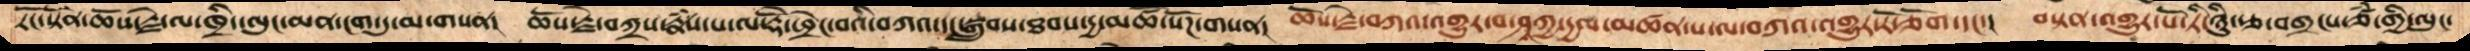རིང་སྟོན་ཆོས་རྗེ་ལ་ཁྲིད་ལུང་མན་ངག་དུ་མ་གསན།   ཆོས་རྗེ་བཀྲས་རྣཾས་པ་ལ་རྡོེ་ཕྲེང་བའི་བཀའ་དང་སྒྲུབས་ཐབས་དྱ་མཚོ་སོཌ་གསན།   ཆོས་རྗེ་བཀའ་འགྱུར་བ་ཤཱཀྱ་དྱལ་མཚན་པ་ལ་བཀའ་འགྱུར་རོ་ཅོག་དང་།   བསྟན་འགྱུར་པོ་ཏི་ཉིུ་རྩ་བགྲངས་ཙཾ་གྱི་ལུང་
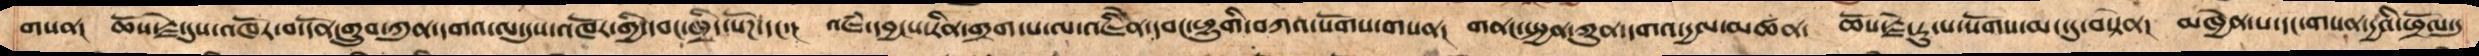གསན།  ཆོས་རྗེ་དུས་འཁོར་བ་དོན་གྲུབ་ཀུན་དགའ་ལ་དུས་འཁོར་གྱི་དབང་ཁྲིད་སོཌ་དང་།   འཇཾ་དབྱངས་རིན་གྲག་པ་ལ་འཇིནེ་དབང་ཕྱུགི་བཀའ་སོགས་གསན།   གནང་སྤྱན་ཀུན་དགའ་དྱལ་མཚན་   ཆོས་རྗེ་རུ་པ་སོགས་མང་དུ་བསྟེན།   མཁྱེན་པ་དང་གསན་དྱའི་ཕྲོལ་དུ
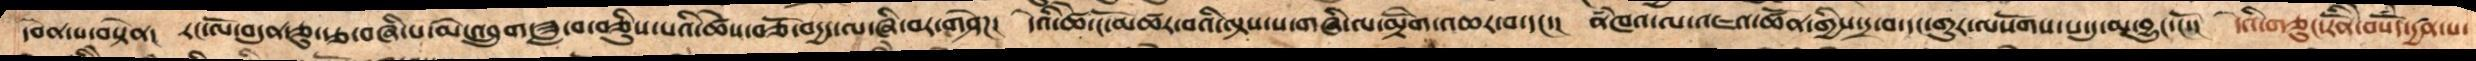དབེན་པ་བསྟེན།   རང་ལོ་བདུན་ཅུ་རྩ་བཞི་པ་མེ་འབྲུག་ཟླ་བ་བཅིུས་པའི་ཚེས་བཅོ་བདྱད་ལ་ཞི་བར་གཤེཌ།    དེའི་ཚེ་ངོ་མཚར་བའི་ལྟས་ས་གཞི་ལ་མྟེགོ་འཆར་བ་དང་།   ནཾཁའ་ལ་འཇའ་ཚོན་གྱིས་དྲ་བ་དང་གུར་ལསོགས་པ་དུ་མ་བྱུང་ངོ་།    དེའི་གཅུང་རིནོི་བསོདཾ་དྱཚན་པ་
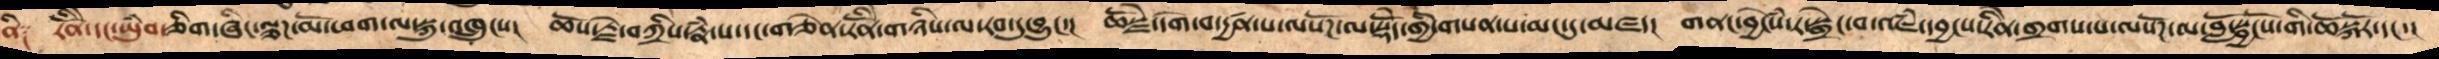ནི༑   རིནོེ་དང་ཡུཾབ་ཅིག་ཞིང་ལྕཌ་མོ་ཕག་ལ་སྐུ་འཁྲུངས།    ཆོས་རྗེ་བཀྲིས་རྣཾ་པ་དང་གཅེན་རིནོེ་གཉིས་ལ་རབ་དུ་བྱུང་།   ཆོསྗེ་དགེ་བ་དྱཚན་པ་ལསོཌ་ལ་སྡོེད་གྱི་གསན་པ་མང་དུ་མཛད།   གནང་བྱེངཾས་ར་སྒྲེང་བ་འཇཾ་དབྱངས་རིནེ་གྲགས་པ་ལསོཌ་ལ་བློ་སྦྱོངས་གི་ཆོསྐོར་དང་།
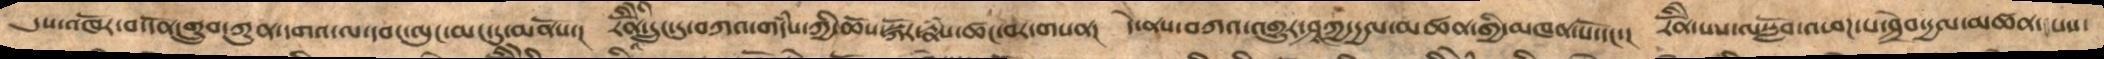དུས་འཁོར་བ་དོན་གྲུབ་ཀུན་དགའ་ལ་དབང་ལུང་མང་དུ་མནོས་།    རིནོེའི་དྲུང་དུ་བཀའ་གདཾས་ཀྱི་ཆོས་སྐོར་རྣཾས་ཚང་བར་གསན།   དེ་ནས་བཀའ་འགྱུར་ཤཱཀྱ་དྱལ་མཚན་གྱི་མཁན་པོ་དང་།   རིནོེ་པས་ལསློབ་འཕཌ་པ་ཤྲེབ་དྱལ་མཚན་པས་
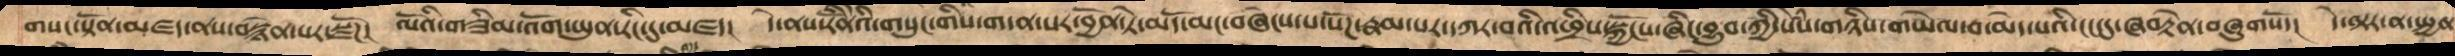གསང་སྟོན་མཛད་ནས་བསྙེན་པར་སྫོཌ།   ལོའི་གཟིམ་འོག་ཡུན་རིང་དུ་མཛད།  དེ་ནས་རིནོེའི་གསང་གིས་གདན་སར་བྱོན་ཏེ་མདོ་མང་བཞེངས་པ་སོཌ་རྣམ་པར་དཀར་བའི་འཕྲིས་སྐྱོངས་ཞིང་བྱུབ་ཀྱི་སེཾས་གཉིས་གཡེལ་བ་མེད་པའི་ངང་དུ་ཞབརྟེན་བཞུགསོ་།   དེ་ལྟར་ན་སྤྱན
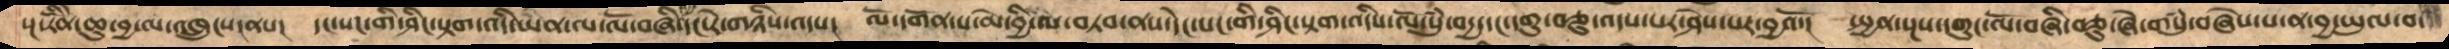སྔ་རིནོེ་ཆུ་བྱ་ལ་འཁྲུངས་ནས།   དང་སང་གི་ཤིང་སྟག་འདི་ཡིན་ལ་ལོ་བཞི་དང་རེ་གཉིས་འདས།   ལོ་དགོན་པ་མེ་བྱི་ལ་བཏབ་ནས་དེང་སང་གི་ཤིང་སྟག་འདིས་ལོ་སུཾ་བདྱ་དང་དགུ་བཅུ་འདས་པར་ཤེས་པར་བྱའོ་།   སྤྱན་སྔས་དགུང་ལོ་བཞི་བཅུ་ཞེ་གསུཾ་བཞེས་པ་ན་བྱ་ཡུལ་བ་
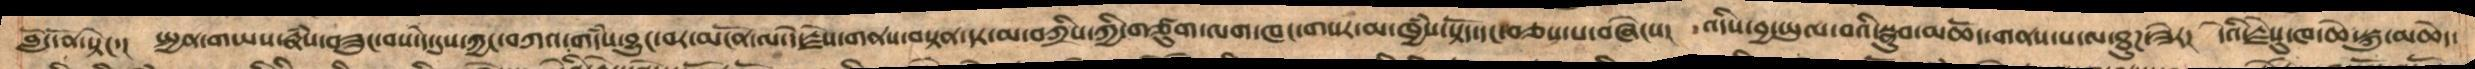བློ་དོན་སྟེང་།    སྤྱན་གཡས་རྣཾས་བཟུང་བས་དེ་དུས་ཀྱང་བཀའ་གདཾས་བྱུང་བར་མངོན་ལ་དེ་རྗེས་གནས་བསྟན་དར་མ་བཀྲིས་ཀྱི་གཙུག་ལག་ཁང་གསར་མ་ཁྱཾས་སྟོད་དང་བཅས་པ་བཞེངས།   འདིས་བྱ་ཡུལ་བའི་སྣུབ་མཆོད་གནས་པ་ལ་ཐུཌ་ཟེར།   དེའི་རྗེསུ་ཁ་ཆེ་སྐུ་མཆེད་
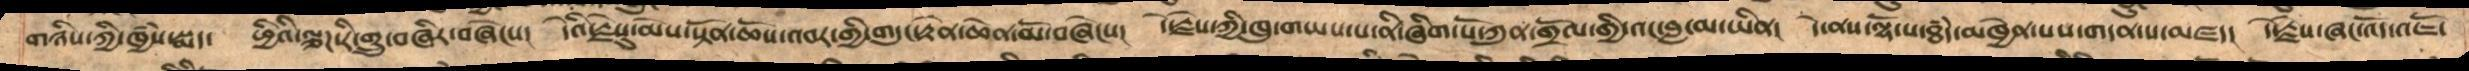གཉིས་ཀྱི་ཁྱཾས་སྨད་    ཕྱིའི་ལྕཌ་རི་གྲུ་བཞིར་བཞེངས།   དེའི་རྗེསུ་མེས་སྟོན་ཆོས་འབར་གྱི་གདུང་རྟེན་ཆེན་མོ་བཞེངས།    དེ་རྗེས་ཀྱི་ཁུ་གཡས་པ་ནི་ཞིག་པོ་ཀུན་གྲོལ་གྱི་འང་བླ་མ་ཡིན།  དེ་ནས་ལྷོ་པ་ཐཾད་མཁྱེན་པས་གདན་ས་མཛད།   དེ་རྗེས་ཞང་འོད་འཇོ་
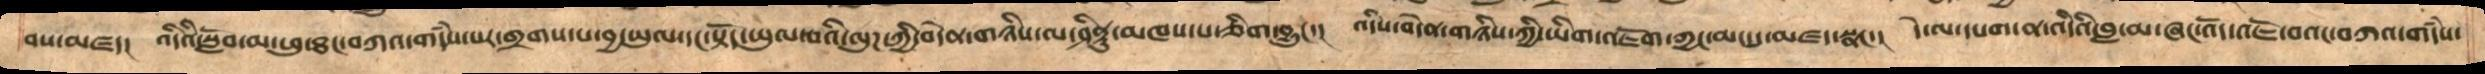བས་མཛད།   འདིའི་སློབ་མ་ཕུ་ཐང་བཀའ་གདཾས་པར་གྲགས་པ་བྱ་ཡུལ་དང་སྟོད་ཡུལ་པའི་ལུཌ་ཀྱི་བདེན་གཉིས་ལ་ཤིནྟུ་མཁས་པ་ཅིག་བྱུང་།   འདིས་བདེན་གཉིས་ཀྱི་ཡིག་འཇོག་ཀྱང་མང་དུ་མཛད་སྣང་།    དེ་ལ་དཔག་ན་འདིའི་བླ་མ་ཞང་འོད་འཇོ་བའང་བཀའ་གདཾས་
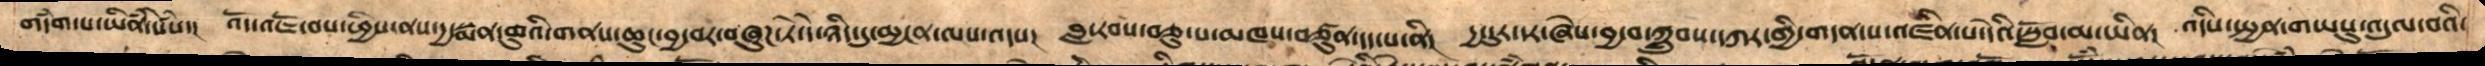གདཾས་པ་ཡིནཾ་སེཾས་།    འོད་འཇོ་བས་ཕྱིས་ནས་དྱ་སྨན་ཆུའི་གནས་ཆུང་བྱ་བར་བཞུཌ་ཏེ་དེ་ཉིད་དུ་མྱངན་ལས་འདས།    བླ་རབས་བཅུ་པ་མཁས་བཙུན་དད་པ་ནི།  དྱ་ངུར་དར་ཞེས་བྱ་བ་ཀྲུབས་དཀར་གྱི་གདན་ས་མཛིན་པ་དེའི་སློབ་མ་ཡིན།   འདིས་སྤྱན་གཡསུ་འདུལ་བའི་
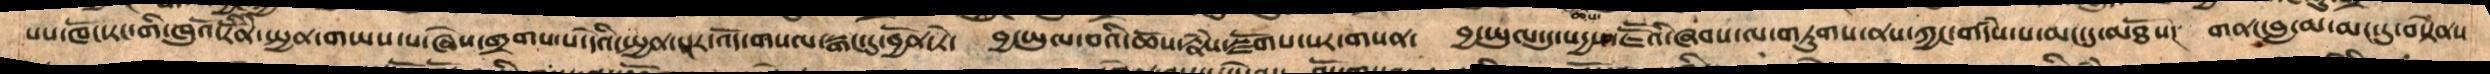པས་ཁོང་རང་གི་ཁུའོ་རིནེོ་སྤྱན་གཡས་པ་ཞེས་གྲགས་པ་དེའི་སྤྱན་སྔར་འོད་གསལ་སྒང་དུ་བྱོན་ཏེ་      བྱ་ཡུལ་བའི་ཆོས་རྣཾས་སྫོགས་པར་གསན་   བྱ་ཡུལ་དུ་སདྱས་ཇཽའི་ཞབས་ལ་གཏུགས་ནས་ཀྱང་གདཾས་པ་མང་དུ་མཐོས།   གནང་བླ་མ་མང་དུ་བསྟེནས
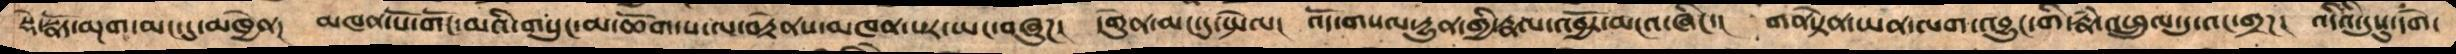སྡེ་སྣོད་མྔག་མང་དུ་མཁྱེན།   མཁན་པོ་གོང་མའི་གསུང་མ་ཆོག་པ་ལ་བརྟེནས་མཁན་པར་ཡང་བཞུཌ།     དགེུན་མང་དུ་སྤེལ།   འོད་གསལ་དྱུན་གྱི་རྣལ་འབྱོར་མངའ་ཞིང་།  གནསྟེན་ཡན་ལག་འབྱུང་གི་རྣཾ་འཕྲུལ་དུ་འང་གྲཌ།  འདིའི་དུསུ་དགེ་
